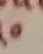༣༠
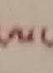ལ་
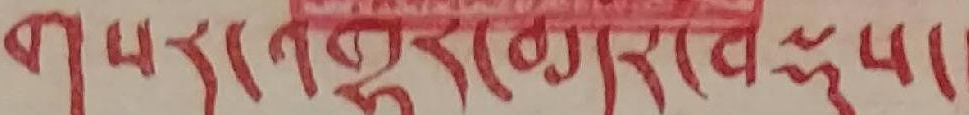གསར་འགྱུར་མདོར་བསྡུས།
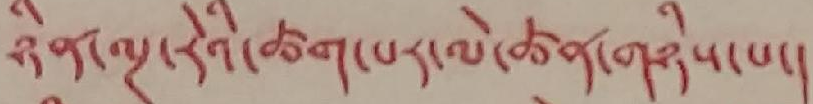ཉིན་ང་རེའི་ཚག་པར་ལེ་ཚན་གཉིས་པ་།
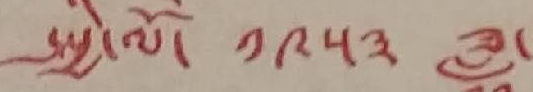སྤྱི་ལོ་ ༡༩༥༣ ཟླ་
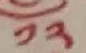༡༢
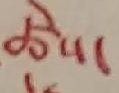ཚེས་
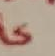༦
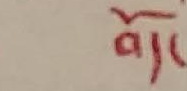བོད་
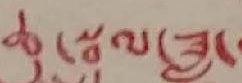ཆུ་སྦྲུལ་ཟླ་
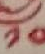༡༠
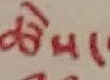ཚེས་
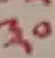༣༠
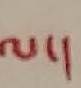ལ་།
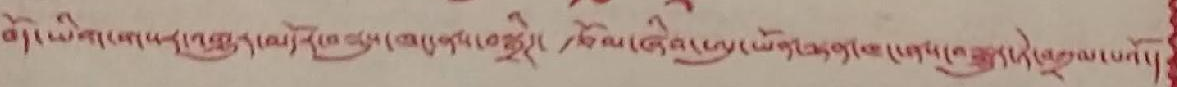བོད་ཡིག་གསར་འགྱུར་མདོར་བསྡུས་ཁང་ནས་བསྒྲིཊ་ རྩོམ་ཞིབ་ཨུ་ཡོན་ལྷན་ཁང་ནས་བསྒྱུར་ཏེ་བཀྲམ་པའོ་།
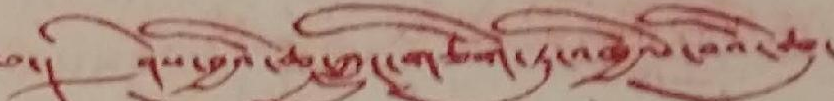༄། ཤེས་བྱའི་ཆུ་ཀླུང་གཅིག་ཏུ་འཁྱིལ་བའི་ཆུ་
